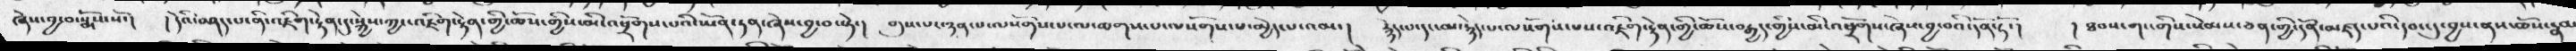ཞེས་བྱ་བ་སྨོས་སོ་།  ། དེའི་བཤད་པ་ནི་འཇིག་རྟེན་དུ་སྐྱེས་ཀྱང་འཇིག་རྟེན་གྱི་ཆོས་ཀྱིས་མི་འཕྲོག་པའི་ཡོན་ཏན་ཞེས་བྱ་བ་སྟེ་།  གུས་པར་ཉན་པ་ལསགོས་པ་ལ་ཆགས་པ་ལསོགས་པ་མྱེད་པ་འམ་།  རྙེད་པ་དང་མ་རྙེད་པ་ལསོགས་པས་འཇིག་རྟེན་གྱི་ཆོས་བརྒྱུད་གྱིས་མི་འཕྲོགས་ཞེས་བྱ་བའི་དོན་ཏོ་།  ། ཐབས་གང་གིས་སེམས་ཅན་གྱི་དོན་མཛད་པའི་དབང་དུ་བྱས་ནས་ཆོས་རྣམ
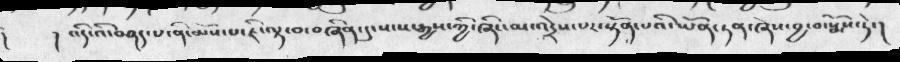།     ། འདིའི་བཤད་པ་ནི་མོས་པ་ཇི་ལྟ་བ་བཞིན་དུ་སངས་རྒྱས་ཀྱི་ཞིང་མ་འདྲེས་པར་སྟོན་པའི་ཡོན་ཏན་ཞེས་བྱ་བ་སྨོས་ཏེ་།
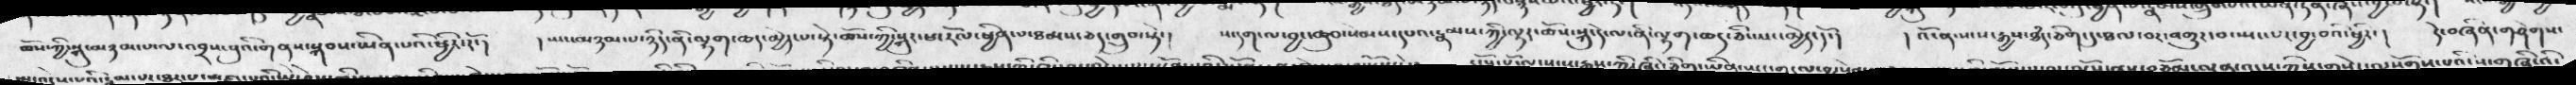ཆོས་ཀྱི་སྐུ་མཉམ་པ་ལ་འབྲས་བུའི་གནས་སྐབས་ཡིན་པའི་ཕྱིར་རོ་།  ། སྤང་མཉམ་པ་ཉིད་ནི་ལྷག་ཆད་མྱེད་པ་སྟེ་ཆོས་ཀྱི་སྐུར་ཕ་རོལ་ཕྱིར་པ་ཐམས་ཅད་གྲུབ་སྟེ་།   ས་དག་ལ་བྱང་ཆུབ་སེམས་དཔའ་རྣམས་ཀྱི་ལྟར་ཆོས་སྐུ་དེ་ལ་ནི་ལྷག་ཆད་ཅི་ཡང་མྱེད་དོ་།  ། འོ་ན་སངས་རྒྱས་ཐཾད་ཅིག་དུ་ཐལ་བར་འགྱུར་བ་སྤང་པར་བྱ་།   དེ་བཞིན་གཤེགས་
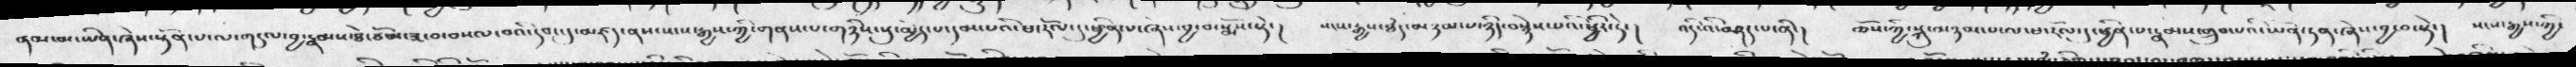ནམ་མ་ཡིན་ཞེས་སྟོན་པ་ལ་གདུལ་བྱ་རྣམས་ཐེ་ཙོམ་ཟ་བ་བསལ་བའི་རབ་དུ་མཛད་ནས་སངས་རྒྱས་ཀྱི་གནས་པ་གཉིས་སུ་མྱེད་པ་དམ་པའི་ཕ་རོལ་དུ་ཕྱིན་པ་ཞེས་བྱ་བ་སྨོས་སྟེ་།  སངས་རྒྱས་ཐཾད་མཉམ་པ་ཉིད་བསྙེས་པའི་ཕྱིར་ཏེ་།   འདི་འི་བཤད་པ་ནི།  ཅོས་ཀྱི་སྐུ་མཉམ་པ་ལ་ཕ་རོལ་དུ་ཕྱིན་པ་རྣམས་གྲུབ་པའི་ཡོན་ཏན་ཞེས་བྱ་བ་སྟེ་།  སངས་རྒྱས་ཀྱི་
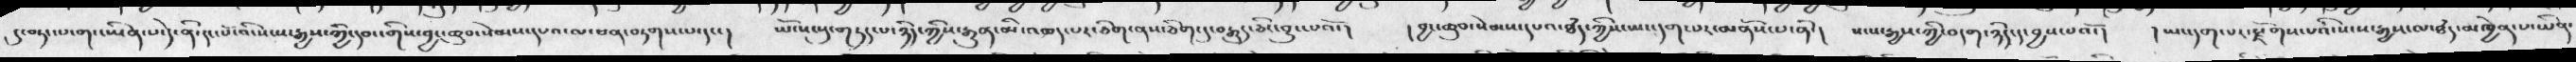དུ་བཏང་པ་གང་ཡིན་པ་དེ་ནི་དང་པོ་འི་སངས་རྒྱས་ཀྱི་དབང་གིས་བྱང་ཆུབ་སེམས་དཔའ་ལ་ཕན་བཏགས་པ་དང་།   ཡོངས་སུ་གདུད་པ་ཉིད་ཀྱིས་རྒྱུན་མི་འཆད་པར་ཅིག་ནས་ཅིག་དུ་བརྒྱུད་ཅིང་བྱུང་པའོ་།     ། བྱང་ཆུབ་སེམས་དཔའ་ཐཾད་ཀྱིས་ཡང་དག་པར་མནོས་པ་ནི་།   སངས་རྒྱས་ཀྱི་བདག་ཉིད་དུ་བྱས་པའོ་།    ། ཡང་དག་པར་རྗོགས་པའི་སངས་རྒྱས་ལ་ཐཾད་མཁྱེན་པ་ཡིན་
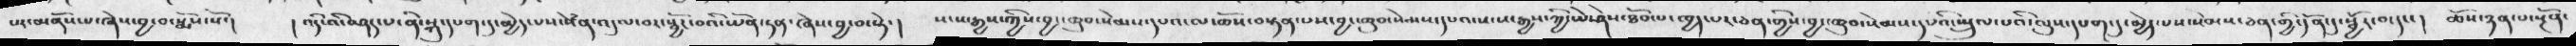པར་མནོས་པ་ཞེས་བྱ་བ་སྨོས་སོ་།   ། འདིའི་བཤད་པ་ནི་སྐུ་དཔག་དུ་མྱེད་པས་སེཾན་འདུལ་བར་སྦྱོར་བའི་ཡོན་ཏན་ཞེསབྱ་བ་སྟེ་།    སངས་རྒྱས་ཀྱིས་བྱང་ཆུབ་སེམས་དཔའ་ལ་ཆོས་བསྟན་པས་བྱང་ཆུབ་སེམས་དཔའ་སངས་རྒྱས་ཀྱི་ཡེ་ཤེས་ཐོབ་པ་ཁྱད་པར་ཅན་གྱིས་བྱང་ཆུབ་སེམས་དཔའི་ཡྲུལ་པའི་ལུས་དཔག་དུ་མྱེད་པས་སེམས་ཅན་གྱི་དོན་དུ་སྦྱོར་བ་དང་།   ཆོས་ཉན་པ་སྔོན་
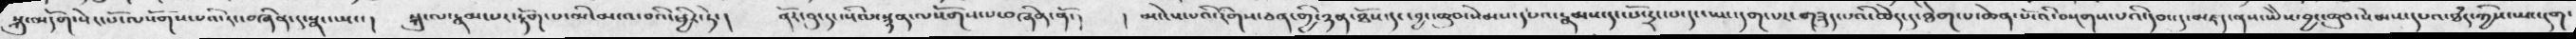སྐུ་མདོག་སེར་པོ་ལསོགས་པའི་རང་བཞིན་དུ་སྣང་ཡང་།   སྐུ་ལ་རྣམ་པར་རྟག་པ་མངའ་བའི་ཕྱིར་ཏེ་།   ནོར་བུ་དང་སིལ་སྙན་ལསོགས་པ་བཞིན་ནོ་།     མ་ངེས་པའི་རིགས་ཅན་གྱི་ཉན་ཐོས་དང་བྱང་ཆུབ་སེམས་དཔའ་རྣམ་དང་པོ་དྲང་པ་དང་ཡང་དག་པར་གཟུང་པའི་ཆེད་དུ་ཐེག་པ་ཆེན་པོ་འི་བསྔགས་པའི་དབང་དུ་མཛད་ནས་ཡིས་བྱང་ཆུབ་སེམས་དཔའ་ཐཾད་ཀྱིས་ཡང་དག་
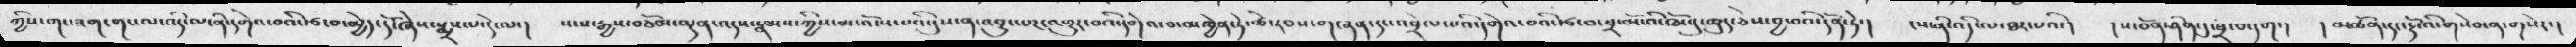ཀྱིས་གང་ཟག་གང་ལ་འདི་ལ་ནི་དགེའ་བའི་རྩ་བ་མྱེད་དོ་ཞེས་སྨྲས་པ་དེ་ལད།  སངས་རྒྱས་བཅོམ་ལྡན་འདས་རྣམས་ཀྱིས་མ་འོངས་པའི་དུས་ན་འབྱུང་པར་འགྱུར་བའི་དགེའ་བ་མཁྱེན་ཏེ་ཚེ་རབས་གཞན་དང་འབྲེལ་པའི་དགེའ་བའི་རྩ་བ་ཕྲ་མོ་འི་ཁོང་དུ་ཆུད་ཅེས་བྱ་བའི་དོན་ཏེ་།    ངས་ནི་འདི་ལ་ཐར་པའི་།  ། ས་བོན་ཤིན་དུ་ཕྲ་བ་དག་།  ། མཚོན་དང་རྗེ་འི་གསེབ་ན་གསེར་།
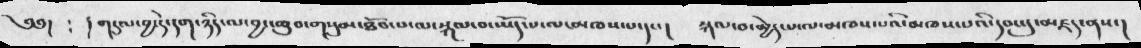༄༅།   ༴  ། གདུལ་བྱ་དེ་དག་ཉིད་ལ་བྱང་ཆུབ་གསུམ་ཐོབ་པ་ལ་སྐལ་བ་ཡོད་ལ་མཁས་པ་དང་།     སྐལ་བ་མྱེད་པ་ལ་མཁས་པའི་མཁས་པའི་དབང་དུ་མཛད་ནས་།
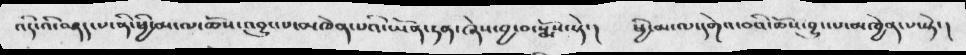འདི་འི་བཤད་པ་ནི་ཕྱི་མ་ལ་ཆོས་འབྱུང་པ་མཁྱེན་པའི་ཡོན་ཏན་ཞེས་བྱ་བ་སྨོས་སྟེ་།    ཕྱི་མ་ལ་དགེའ་བའི་ཆོས་བྱུང་པ་མཁྱེན་པ་སྟེ་ །
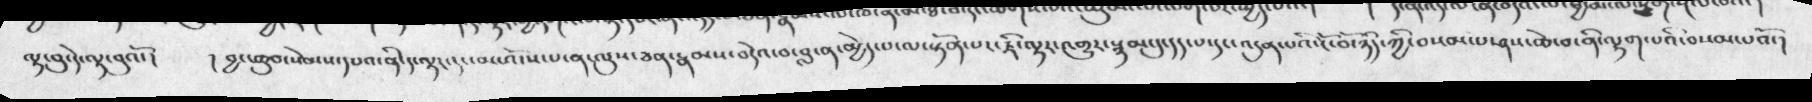ལྟ་བུ་དེ་ལྟ་བུའོ་།  །བྱང་ཆུབ་སེམས་དཔའ་ནི་ད་ལྟང་དང་མ་འདོས་པ་ན་ལུས་ཅན་རྣམས་བདེའ་བ་བླ་ན་མྱེད་པ་ལ་སྟོན་པར་ཇི་ལྟར་འགྱུར་སྙམ་དུ་དད་པ་དང་འདུན་པའི་ངོ་བོ་ཉིད་ཀྱི་བསམ་པ་ཤས་ཆེ་བ་ནི་ལྟག་པའི་བསམ་པའོ་།
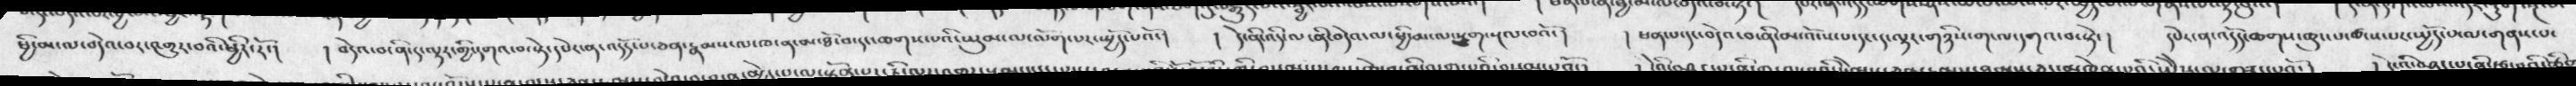ཕྱི་མ་ལ་བདེའ་བར་འགྱུར་བའི་ཕྱིར་རོ་།  །བདེའ་བ་ནི་རང་ལྟར་གྱི་དགའ་བ་སྟེ་དཔེར་ན་འདོད་པ་ཅན་རྣམས་ལ་ཁ་ན་མ་ཐོ་བ་དང་ཆགས་པའི་ཡུལ་ལ་ལོག་པར་སྤྱོད་པའོ་།  ། དེ་ནི་འདི་ལ་ནི་བདེབ་ལ་ཕྱི་མ་ལ་སྡུག་སྔལ་བའོ་།  །ཕན་པ་དང་བདེའ་བ་ནི་མ་འོངས་པ་དང་ད་ལྟར་གཉིས་གང་ལ་དགའ་བ་སྟེ་།  དཔེར་ན་འདོད་ཆགས་ཆུང་པ་ཚངས་པར་སྤྱོད་བ་མ་གནས་པ་
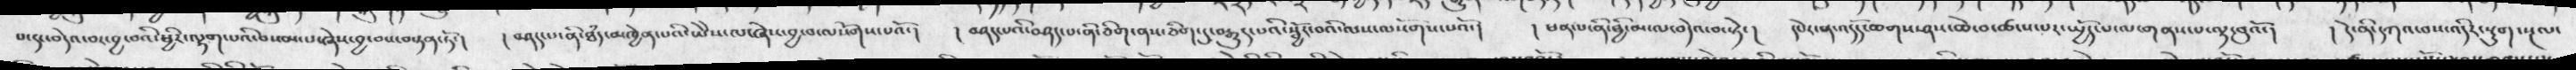པ་དང་བདེའ་བར་བྱ་བའི་ཕྱིར་ལྟག་པའི་བསམ་པ་ཞེས་བྱ་བས་བསྟན་ཏོ་།  །བཤད་པའི་བཤད་པ་ནི་ཅིག་དུ་བརྒྱུད་པའི་སྦྱོར་བའི་ལས་ལ་དོགས་པའོ་།  །ཕན་པ་ནི་ཕྱི་མ་ལ་བདེའ་བ་སྟེ་།  དཔེར་ན་འདོད་ཆགས་ཤས་ཆེ་བ་ཚངས་པར་སྤྱོད་པ་ལ་གནས་པ་ལྟ་བུའོ་།  །དེ་ནི་དཀའ་བའ་འདིར་སྡུག་སྔལ་
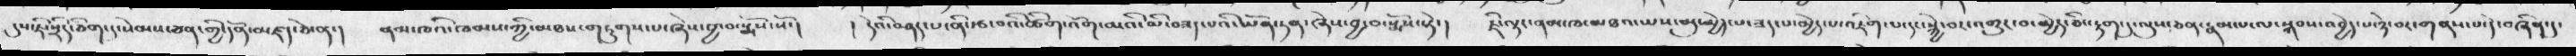དུས་ཇི་སྲིད་ཅིག་དུ་སེམས་ཅན་གྱི་དོན་མཛད་ཅེ་ན་།   ནམ་ཁའི་ཁམས་ཀྱི་མཐས་གཏུགས་པ་ཞེས་བྱ་བ་སྨོས་སོ་།   །  དེའི་བཤད་པ་ནི་རྩ་བའི་ཚིག་འོག་མའི་མི་བཟད་པའི་ཡོན་ཏན་ཞེས་བྱ་བ་སྨོས་སྟེ་།   ཇི་ལྟར་ནམ་ཁ་མཐའ་ཡས་མུ་མྱེད་པ་ཟད་པ་མྱེད་པ་འཇིག་པ་དང་སྐྱེ་བར་འགྱུར་བ་མྱེད་ཅིང་རྟག་དུ་ལུས་ཅན་རྣམ་པ་ལ་སྐབས་འབྱེད་པ་ཉེ་བར་གནས་པ་དེ་བཞིན་དུ་
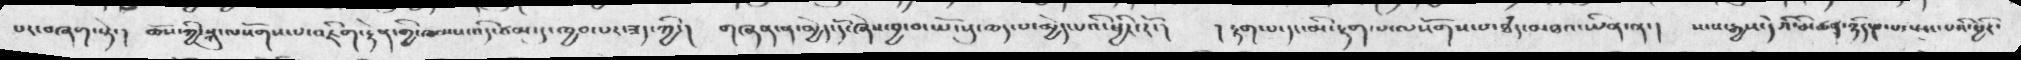པར་བཞག་སྟེ་།  ཆོས་ཀྱི་སྐུ་ལསོགས་པ་འཇིག་རྟེན་གྱི་ཁམས་འདི་ཙམ་དུ་ཁྱབ་པར་ཟད་ཀྱི་།   གཞན་ན་མྱེད་དོ་ཞེས་བྱ་བ་ཡོངསུ་ཆད་པ་མྱེད་པའི་ཕྱིར་རོ་།  ། རྟག་པ་དང་མི་རྟག་པ་ལསོགས་པ་ཐཾད་མཐའ་ཡིན་ན་།  སངས་རྒྱས་དེའི་མཚན་ཉིད་ཎ་པ་སྤང་པའི་ཕྱིརོ་
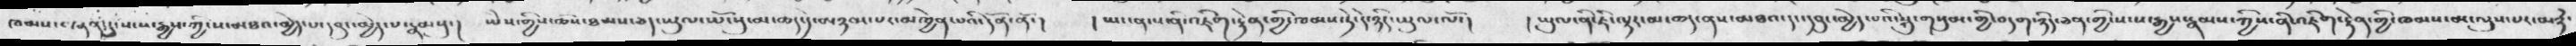ཁམས་བཞན་དུ་སངས་རྒྱས་ཀྱི་ས་མཐའ་མྱེད་པ་དབུ་མྱེད་པ་རྣམསུ་།   ཡེེས་གྱི་ཁཾས་ཐམས་ཅད་ཡུལ་ཡོངསུ་མ་ཆད་དེ་མཉམ་པར་མཁྱེན་པའི་དོན་ནོ་།   །  ཡང་ན་ས་ནི་འཇིག་རྟེན་གྱི་ཁམས་ཏེ་དེ་ཉིད་ཡུལ་ལོ་།   ། ཡུལ་ནི་ཇི་ལྟར་མ་ཆད་ནས་མཐའ་དང་དབུ་མྱེད་པའི་སྐུ་གསུམ་གྱི་བདག་ཉིད་ཅན་གྱི་སངས་རྒྱས་རྣམས་ཀྱིས་ནི་འཇིག་རྟེན་གྱི་ཁམས་མ་ལུས་པར་མཉེ་
